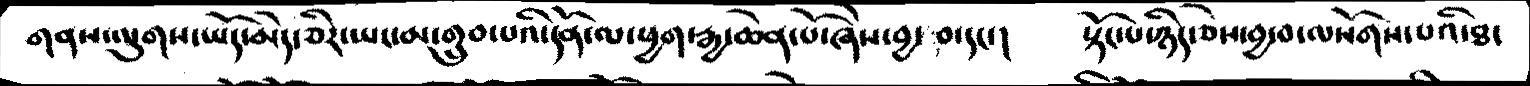གནས་ལུགས་ཡོད་མེད་ཅིར་ཡང་མ་གྲུབ་པའི་དོན་ལ་ཕྱག་རྒྱ་ཆེན་པོ་ཞེས་བྱ་བ་དང་།     སྟོང་ཉིད་ཅེས་བྱ་བ་ལསོགས་པའི་ཐ་
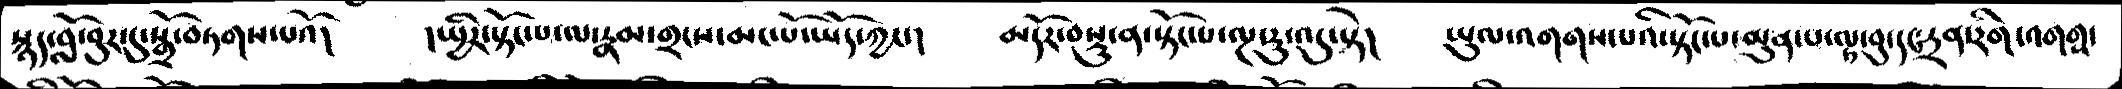སྙད་བློ་བུར་དུ་སྒྲོ་བཏགས་པའོ།     །སྤྱིར་སྟོང་པ་ལ་རྣམ་གྲངས་མང་པོ་ཡོད་ཀྱང་།   མདོར་བསྡུ་ན་སྟོང་པ་ལྔ་རུ་འདུ་སྟེ།   ཡུལ་འགགས་པའི་སྟོང་པ་མུན་པ་ལྟ་བུ་དང་དྲན་རིག་འགགས་
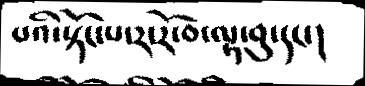པའི་སྟོང་པ་ར་རོ་བ་ལྟ་བུ་དང་།
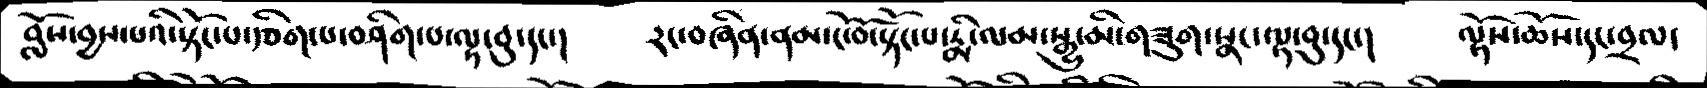བློས་བྱས་པའི་སྟོང་པ་རྩིག་པ་བཤིག་པ་ལྟ་བུ་དང་།     རང་བཞིན་ནམ་ངོ་བོ་སྟོང་པ་རྨི་ལམ་སྒྱུ་མི་གཟུག་སྣང་ལྟ་བུ་དང་།  ལྟོས་ཆོས་དང་བྲལ་
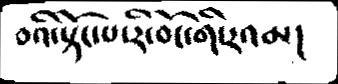བའི་སྟོང་པ་རི་བོང་གི་རའམ།
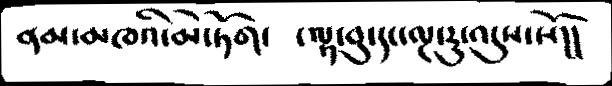ནམ་མཁའི་མེ་ཏོག་   ་ལྟ་བུ་དང་ལྔ་རུ་འདུས་སོ།།
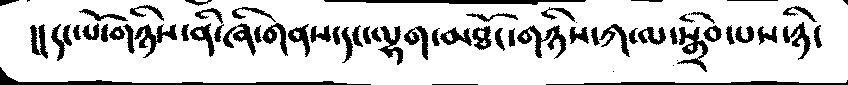།།དང་པོ་གཉིས་ནི་ཞི་གནས་དང་ལྷག་མཐོང་གཉིས་ཀ་ལ་སྒྲིབ་པས་ཉི་
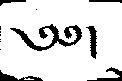༄༅།
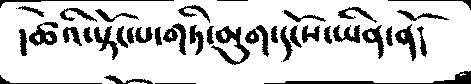།ཚེའི་སྟོང་པ་གཏི་མུག་དངོས་ཡིན་ནོ།
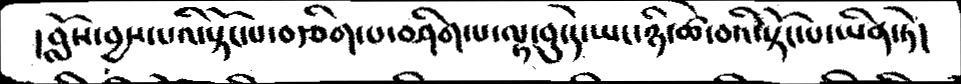།བློས་བྱས་པའི་སྟོང་པ་བརྩིག་པ་བཤིག་པ་ལྟ་བུ་དེ་ཡང་ཉི་ཚེ་བའི་སྟོང་པ་ཡིན་ཏེ།
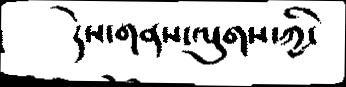དེས་གནས་ལུགས་ཀྱི་
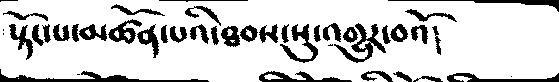སྟོང་པ་མཚོན་པའི་ཐབས་སུ་འགྱུར་བའོ།
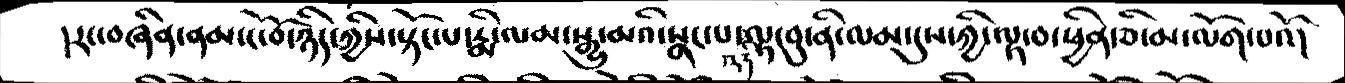།རང་བཞིན་ནམ་ངོ་བོ་ཉིད་ཀྱིས་སྟོང་པ་རྨི་ལམ་སྒྱུ་མའི་སྣང་པ་འདི་ལྟ་བུ་ནི་ལམ་དུས་ཀྱི་ལྟ་བ་ཕྱིན་ཅི་མ་ལོག་པའོ།
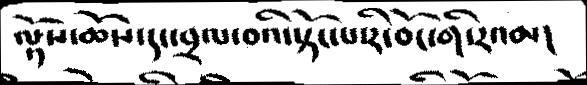ལྟོས་ཆོས་དང་བྲལ་བའི་སྟོང་པ་རི་བོང་གི་རའམ།
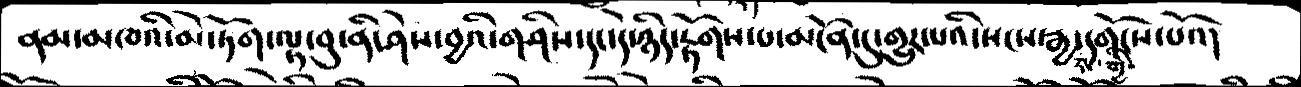ནམ་མཁའི་མེ་ཏོག་ལྟ་བུ་ནི་ཤེས་བྱའི་གཤིས་དང་དེ་ཉིད་རྟོགས་པ་མངོན་དུ་གྱུར་པའི་སངས་རྒྱས་གྱི་དགོངས་པའོ།
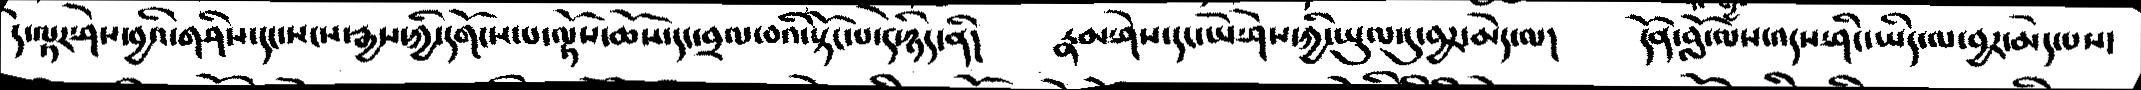དེ་ལྟར་ཤེས་བྱའི་གཤིས་དང་སངས་རྒྱས་ཀྱི་དགོངས་པ་ལྟོས་ཆོས་དང་བྲལ་བའི་སྟོང་པ་དེ་ཉིད་ནི།   རྣམ་ཤེས་དང་ཡེ་ཤེས་ཀྱི་ཡུལ་དུ་བྱར་མེད་ལ།  དོན་བློ་ལས་འདས་ཤིང་ཡིད་ལ་བྱར་མེད་པས་
